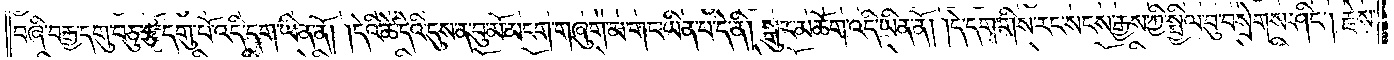བཞི་བརྒྱ་དགུ་བཅུ་རྩ་དགུ་པོ་འདི་དག་ཡིན་ནོ། །དེའི་ཚེ་དེའི་དུས་ན་བུ་མོ་མངག་གཞུག་མ་གང་ཡིན་པ་དེ་ནི། སྒུར་མཆོག་འདི་ཡིན་ནོ། །དེ་དག་གིས་རང་སངས་རྒྱས་ཀྱི་སྤྱིལ་བུ་བསྲེགས་ཤིང༌། རྗེས་
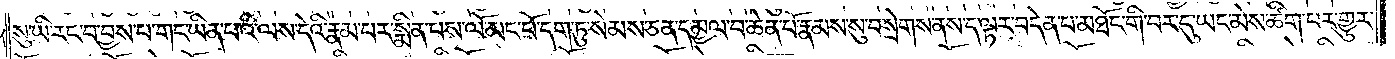སུ་ཡི་རང་བ་བྱས་པ་གང་ཡིན་པའི་ལས་དེའི་རྣམ་པར་སྨིན་པས་ལོ་མང་པོ་དག་ཏུ་སེམས་ཅན་དམྱལ་བ་ཆེན་པོ་རྣམས་སུ་བསྲེགས་ནས་ད་ལྟར་བདེན་པ་མཐོང་གི་བར་དུ་ཡང་མེས་ཚིག་པར་གྱུར་
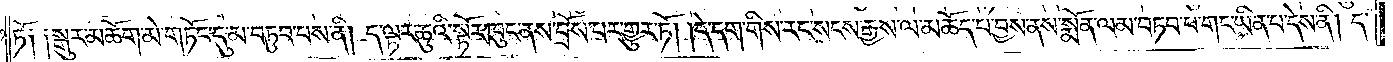ཏོ༑ ༑སྒུར་མཆོག་མེ་གཏོང་དུ་མ་བཏུབ་པས་ནི། ད་ལྟར་ཆུའི་སྟོར་ཁུང་ནས་བྲོས་པར་གྱུར་ཏོ། །དེ་དག་གིས་རང་སངས་རྒྱས་ལ་མཆོད་པ་བྱས་ནས་སྨོན་ལམ་བཏབ་པ་གང་ཡིན་པ་དེས་ནི། ད་
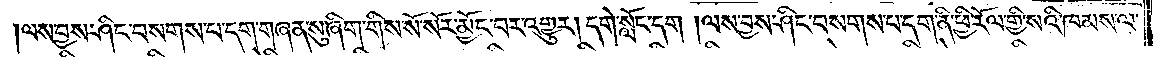ལས་བྱས་ཤིང་བསགས་པ་དག་གཞན་སུ་ཞིག་གིས་སོ་སོར་མྱོང་བར་འགྱུར། དགེ་སློང་དག །ལས་བྱས་ཤིང་བསགས་པ་དག་ནི་ཕྱི་རོལ་གྱི་སའི་ཁམས་ལ་
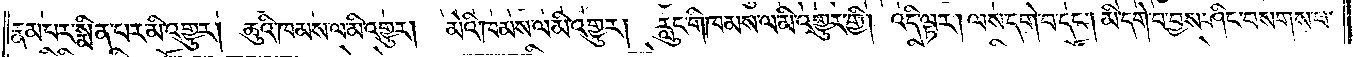རྣམ་པར་སྨིན་པར་མི་འགྱུར། ཆུའི་ཁམས་ལ་མི་འགྱུར། མེའི་ཁམས་ལ་མི་འགྱུར། རླུང་གི་ཁམས་ལ་མི་འགྱུར་གྱི། འདི་ལྟར། ལས་དགེ་བ་དང༌། མི་དགེ་བ་བྱས་ཤིང་བསགས་པ་
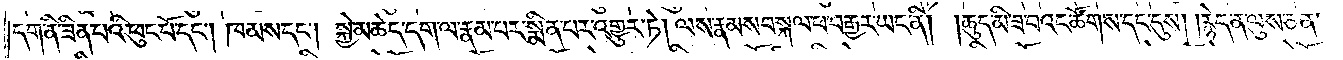དག་ནི་ཟིན་པའི་ཕུང་པོ་དང༌། ཁམས་དང༌། སྐྱེ་མཆེད་དག་ལ་རྣམ་པར་སྨིན་པར་འགྱུར་ཏེ། ལས་རྣམས་བསྐལ་པ་བརྒྱར་ཡང་ནི། །ཆུད་མི་ཟ་བའང་ཚོགས་དང་དུས། །རྙེད་ན་ལུས་ཅན་
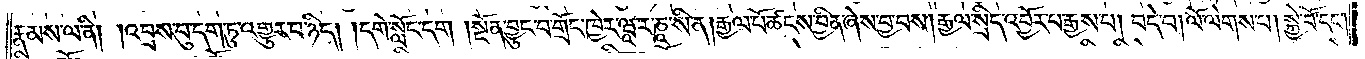རྣམས་ལ་ནི། །འབྲས་བུ་དག་ཏུ་འགྱུར་བ་ཉིད། །དགེ་སློང་དག །སྔོན་བྱུང་བ་གྲོང་ཁྱེར་ཝཱ་ར་ཎཱ་སི་ན། རྒྱལ་པོ་ཚངས་བྱིན་ཞེས་བྱ་བས། རྒྱལ་སྲིད་འབྱོར་པ་རྒྱས་པ། བདེ་བ། ལོ་ལེགས་པ། སྐྱེ་བོ་དང༌།
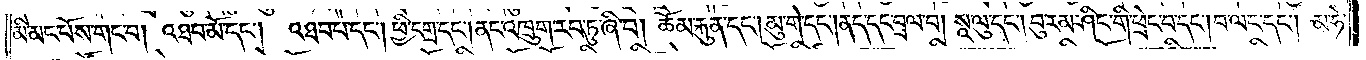མི་མང་པོས་གང་བ། འཐབ་མོ་དང༌། འཐབ་པ་དང༌། ཕྱི་དགྲ་དང༌། ནང་འཁྲུག་རབ་ཏུ་ཞི་བ། ཆོམ་རྐུན་དང༌། མུ་གེ་དང༌། ནད་དང་བྲལ་བ། སཱ་ལུ་དང༌། བུ་རམ་ཤིང་གི་ཕྲེང་བ་དང༌། བ་ལང་དང༌། མ་ཧེ་
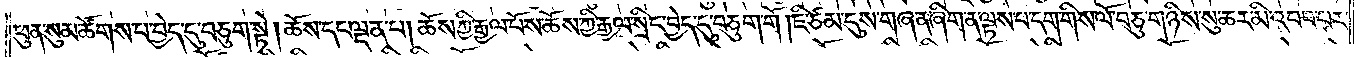ཕུན་སུམ་ཚོགས་པ་བྱེད་དུ་བཅུག་སྟེ། ཆོས་དང་ལྡན་པ། ཆོས་ཀྱི་རྒྱལ་པོས་ཆོས་ཀྱི་རྒྱལ་སྲིད་བྱེད་དུ་བཅུག་གོ །ཇི་ཙམ་དུས་གཞན་ཞིག་ན་ལྟས་པ་དག་གིས་ལོ་བཅུ་གཉིས་སུ་ཆར་མི་འབབ་པར་
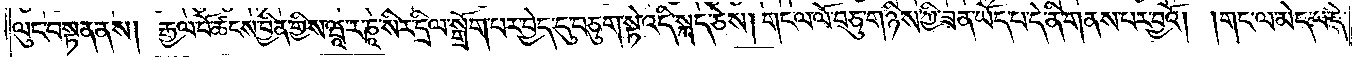ལུང་བསྟན་ནས། རྒྱལ་པོ་ཚངས་བྱིན་གྱིས་ཝཱ་ར་ཎཱ་སིར་དྲིལ་སྒྲོག་པར་བྱེད་དུ་བཅུག་སྟེ་འདི་སྐད་ཅེས། གང་ལ་ལོ་བཅུ་གཉིས་ཀྱི་ཟན་ཡོད་པ་དེ་ནི་གནས་པར་བྱའོ། །གང་ལ་མེད་པ་དེ་
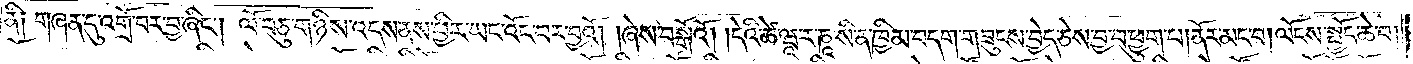ནི༑ གཞན་དུ་འགྲོ་བར་བྱ་ཞིང༌། ལོ་བཅུ་གཉིས་འདས་ནས་ཕྱིར་ཡང་འོང་བར་བྱའོ། །ཞེས་བསྒོའོ། །དེའི་ཚེ་ཝཱ་ར་ཎཱ་སི་ན་ཁྱིམ་བདག་གཟུངས་བྱེད་ཅེས་བྱ་བ་ཕྱུག་པ།ནོར་མང་བ།ལོངས་སྤྱོད་ཆེ་བ།
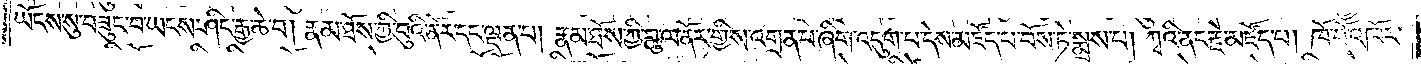ཡོངས་སུ་བཟུང་བ་ཡངས་ཤིང་རྒྱ་ཆེ་བ། རྣམ་ཐོས་ཀྱི་བུའི་ནོར་དང་ལྡན་པ། རྣམ་ཐོས་ཀྱི་བུ་ལ་ནོར་གྱིས་འགྲན་པ་ཞིག་འདུག་པ་དེས་མཛོད་པ་བོས་ཏེ་སྨྲས་པ། ཀྭའི་ནང་རྗེ་མཛོད་པ། ཁོ་བོ་འཁོར་
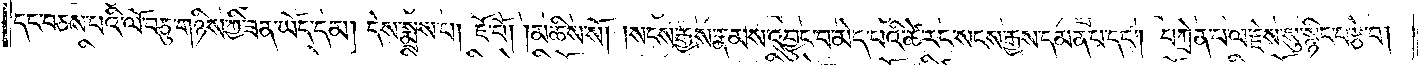དང་བཅས་པའི་ལོ་བཅུ་གཉིས་ཀྱི་ཟན་ཡོད་དམ། དེས་སྨྲས་པ། ཇོ་བོ། །མཆིས་སོ། །སངས་རྒྱས་རྣམས་འབྱུང་བ་མེད་པའི་ཚེ་རང་སངས་རྒྱས་དམན་པ་དང༌། བཀྲེན་པ་ལ་རྗེས་སུ་སྙིང་བརྩེ་བ།
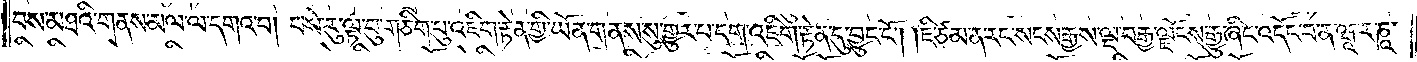བས་མཐའི་གནས་མལ་ལ་དགའ་བ། བསེ་རུ་ལྟ་བུ་གཅིག་པུ་འཇིག་རྟེན་གྱི་ཡོན་གནས་སུ་གྱུར་པ་དག་འཇིག་རྟེན་དུ་བྱུང་ངོ༌། །ཇི་ཙམ་ན་རང་སངས་རྒྱས་ལྔ་བརྒྱ་ལྗོངས་རྒྱུ་ཞིང་འདོང་བ་ན་ཝཱ་ར་ཎཱ་
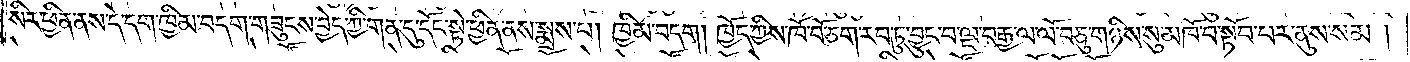སིར་ཕྱིན་ནས་དེ་དག་ཁྱིམ་བདག་གཟུངས་བྱེད་ཀྱི་གན་དུ་དོང་སྟེ་ཕྱིན་ནས་སྨྲས་པ། ཁྱིམ་བདག །ཁྱོད་ཀྱིས་ཁོ་བོ་ཅག་རབ་ཏུ་བྱུང་བ་ལྔ་བརྒྱ་ལ་ལོ་བཅུ་གཉིས་སུ་མཁོ་བ་སྟོབ་པར་ནུས་སམ།
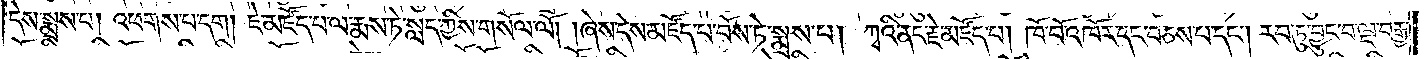དེས་སྨྲས་པ། འཕགས་པ་དག །ཇེ་མཛོད་པ་ལ་རྨས་ཏེ་སླད་ཀྱིས་གསོལ་ལོ། །ཞེས་དེས་མཛོད་པ་བོས་ཏེ་སྨྲས་པ། ཀྭའི་ནང་རྗེ་མཛོད་པ། ཁོ་བོ་འཁོར་དང་བཅས་པ་དང༌། རབ་ཏུ་བྱུང་བ་ལྔ་བརྒྱ་
